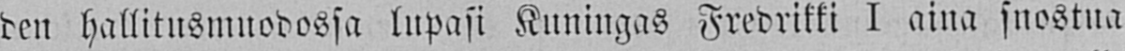den hallitusmuodossa lupasi Kuningas Fredrikki I aina snostua
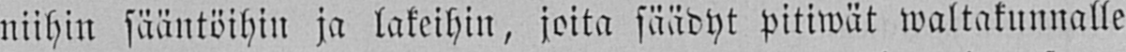niihin sääntöihin ja lakeihin, joita säädyt pitiwät waltakunnalle
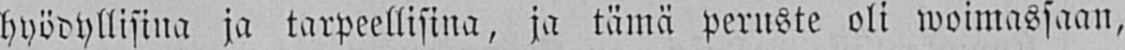hyödyllisinä ja tarpeellisina, ja tämä peruste oli woimassaan,
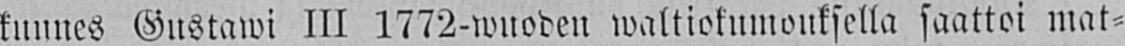kunnes Gustawi III 1772-wuoden waltiokumouksella saattoi mat-
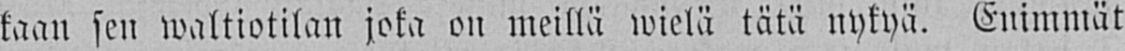kaan sen waltiotilan joka on meillä wielä tätä nykyä. Enimmät
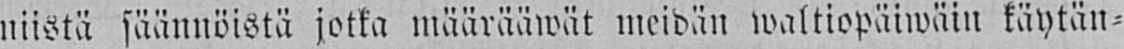niistä säännöistä jotka määrääwät meidän waltiopäiwäin käytän-
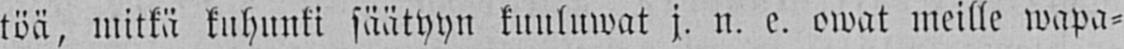töä, mitkä kuhunki säätyyn kuuluwat j. n. e. owat meille wapa-
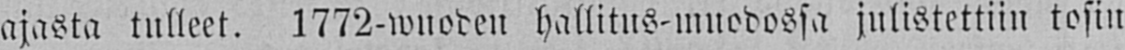ajasta tulleet. l772-wuoden hallitus-muodossa julistettiin tosin
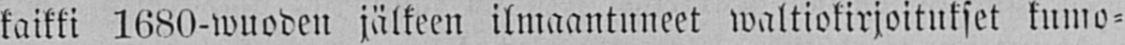kaikki 1680-wuoden jälkeen ilmaantuneet waltiokirjoitukset kumo-
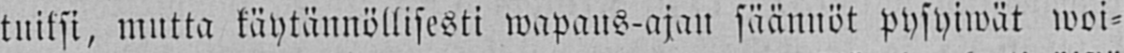tuiksi, mutta käytännöllisesti wapaus-ajan säännöt pysyiwät woi-
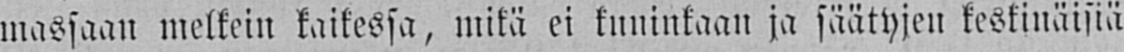massaan melkein kaikessa, mikä ei kuninkaan ja säätyjen keskinäisiä
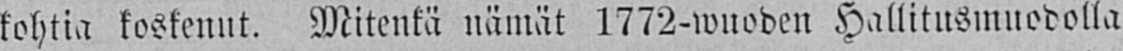kohtia koskenut. Mitenkä nämät 1772-wuoden Hallitusmuodolla
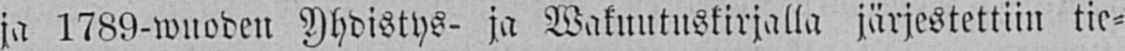ja 1789-wuoden Yhdistys- ja Wakuutuskirjalla järjestettiin tie-
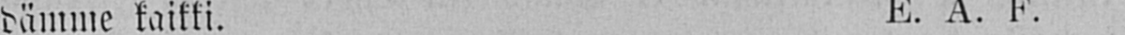dämme kaikki. E. A. F.
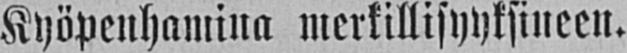Kyöpenhamina merkillisyyksineen.
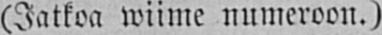(Jatkoa wiime numeroon.)
